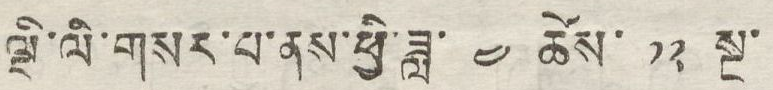ལྡི་ལི་གསར་པ་ནས་ཕྱི་ཟླ་ ༤ ཚེས་ ༡༢ སྔ་
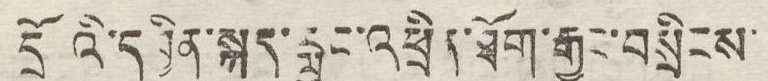དྲོ འི་དབྱིན་སྐད་རླུང་འཕྲིན་ཐོག་རྒྱང་བསྲིངས་
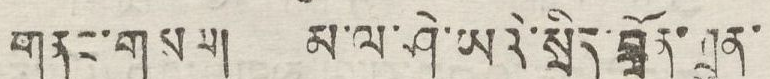གནང་གསལ། མ་ལ་ཤེ་ཡའི་སྲིད་བློན་ཀྲུན་
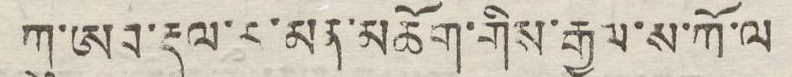ཀུ་ཨབ་རྡུལ་ར་མན་མཆོག་གིས་རྒྱལ་ས་ཀོ་ལ
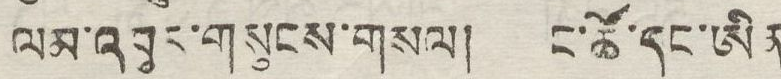ལམ་འབུལ་གསུངས་གསལ། །ང་ཚོ་དང་ཨིན
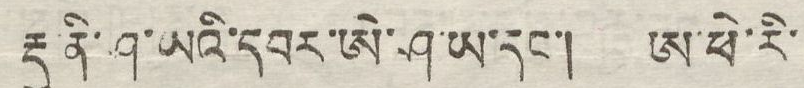རྡུ ནི་ཤ་ཡའི་དབར་ཨེ་ཤ་ཡ་དང་། ཨ་ཕེ་རི་
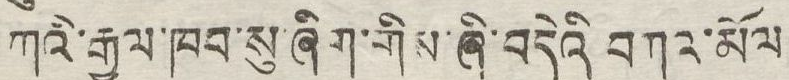ཀའི་རྒྱལ་ཁབ་སུ་ཞིག་གིས་ཞི་བདེའི བཀའ་མོལ
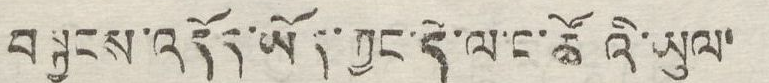བསྐྱངས་འདོད་ཡོད་ཀྱང་དེ་ལ་ང་ཚོ འི་ཡུལ་
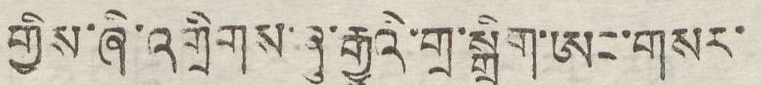གྱིས་ཞི་འགྲིགས་ཞུ་རྒྱུའི་གྲ་སྒྲིག་ཨང་གསར་
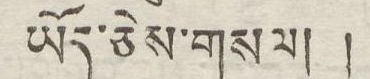ཡོད་ཅེས་གསལ། །
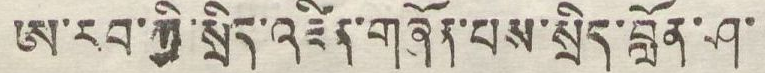ཨ་རབ་ཀྱི་སྲིད་འཛིན་གཞོན་པས་སྲིད་བློན་ཤ་
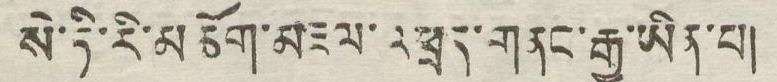སེ་ཏི་རི་མཆོག་མཇལ་འཕྲད་གནང་རྒྱུ་ཡིན་པ།
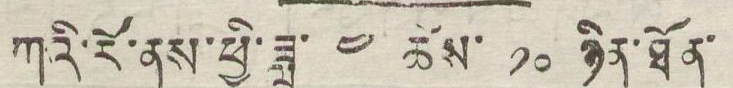ཀའི་རོ་ནས་ཕྱི་ཟླ་ ༤ ཚེས་ ༡༠ ཉིན་ཐོན་
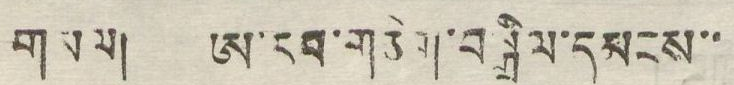གསལ། ཨ་རབ་གཅིག་བསྒྲིལ་དམངས་་
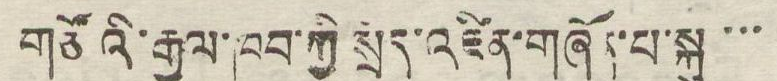གཙོ འི་རྒྱལ་ཁབ་ཀྱི་སྲིད་འཛིན་གཞོན་པ་སྐུ་་་
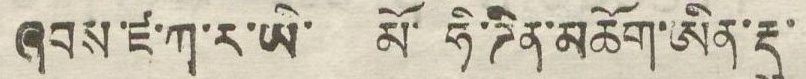ཞབས་ཛ་ཀ་ར་ཡི་ མོ་ཧི་ཌིན་མཆོག་ཨིན་རྡུ་
